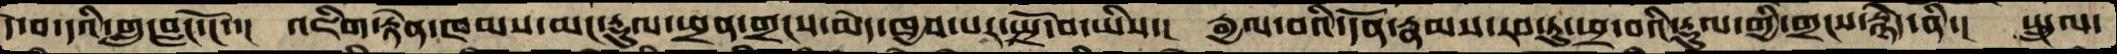དེ་བ་དའི་གླུ་བླང་ངོ་།  འཇིག་རྟེན་ཁམས་མང་རྡུལ་ཕྲན་གྲངས་མེད་ཁྱབ་པར་སྤྲོ་བ་ཡིས་།  རྒྱལ་བའི་དོན་རྣམས་རབ་ཏུ་ཕྲ་བའི་རྡུལ་གྱི་གྲངས་རྙེད་ནི་།  སྤྲུལ་
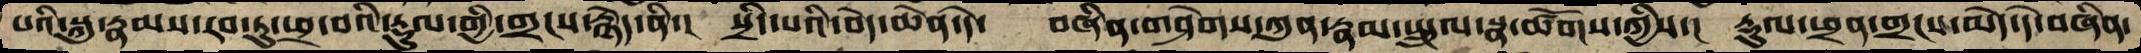པའི་སྐུ་རྣམས་རབ་ཏུ་ཕྲ་བའི་རྡུལ་གྱི་གྲངས་རྙེད་ནི་།  སྲིད་པའི་བདེ་ཆེན་དེ་   བཞིན་གཤེགས་ཀུན་རྣམ་སྤྲུལ་སྣ་ཚོགས་ཀྱིས་།  རྡུལ་ཕྲན་གྲངས་མེད་དེ་བཞིན་
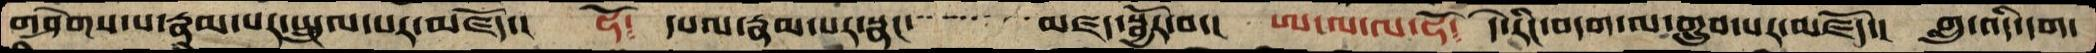གཤེགས་པ་རྣམ་པར་སྤྲུལ་པར་མཛོད་།  ཧོ་  དཔལ་རྣམ་པར་སྣང་  མཛད་སྦྱོར་བ་།  ཨ་ལ་ལ་ཧོ་།  དེ་རིང་བདག་ལ་གྲུབ་པར་མཛོད་།  གླུ་འདི་དག་
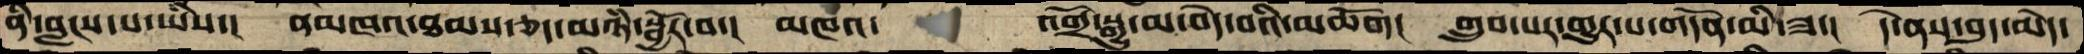ནི་བླངས་པ་ཡིས་།  ནམཁའ་ཐམས་ཅད་མཉཾ་སྦྱོར་བ་།   མཁའ་  འགྲོ་སྒྱུ་མ་བདེ་བའི་མཆོག།  གྲུབ་པར་གྱུར་པ་གདོན་མི་ཟ་།  དེ་ནས་བུད་མེད་
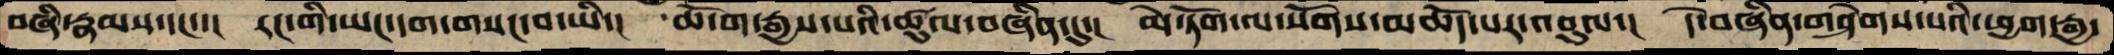བཞི་རྣམས་དང་།  རང་གི་ཡང་དག་གསང་བ་ཡི་།  ཆོ་ག་རྒྱས་པའི་ཚུལ་བཞིན་དུ་།  མེ་ཏོག་ལ་སོགས་མཆོད་པར་འབུལ་།  དེ་བཞིན་གཤེགས་པའི་ཕྱག་རྒྱ་
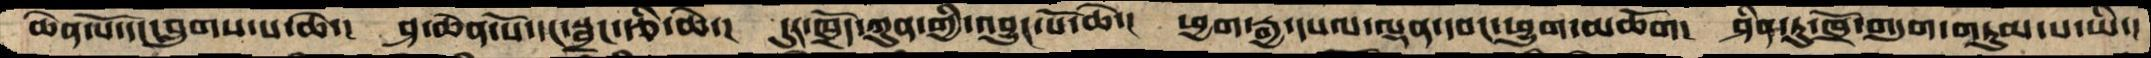ཆེན་པོ་དང་བླུགས་པ་ཆེ་།  ཤ་ཆེན་པོ་དང་སྦྲང་རྩི་ཆེ་།  དུར་ཁྲོད་ཀུན་གྱི་འབྱུང་པོ་ཆེ་།  ཕྱག་རྒྱ་དཔལ་ལྡན་དབང་ཕྱུག་མཆོག།  ཤིན་ཏུ་ཁྲོ་གདུག་གཏུམ་པ་ཡིས་
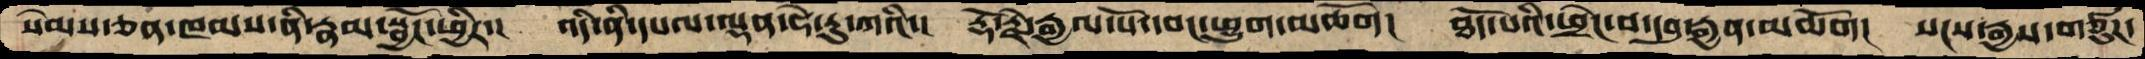སེམས་ཅན་ཁམས་ནི་རྣམ་སྦྱོང་ཕྱིར་།  འདི་ནི་དཔལ་ལྡན་ཧེ་རུ་ཀའི་།  རྡོ་རྗེ་རྒྱལ་པོ་དབང་ཕྱུག་མཆོག།  ཐོད་པའི་ཕྲེང་བ་དབུ་རྒྱན་མཆོག།  སངས་རྒྱས་གཙུཌ
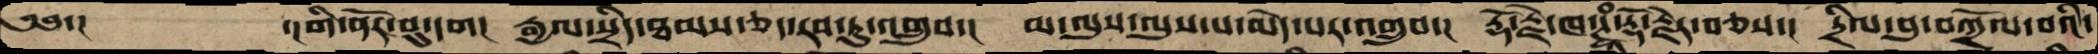༄༅་།        ་།གི་ནོར་བུ་དག།  རྒྱལ་སྲིད་ཐམས་ཅད་རབ་ཏུ་འགྲུབ་།  མ་ལུས་ལུས་པ་མེད་པར་འགྲུབ་།  རྡོ་རྗེ་ཁ་ཊྭཱཾ་རྡོ་རྗེར་བཅས་།  དྲིལ་བུ་བཀྲོལ་བའི་
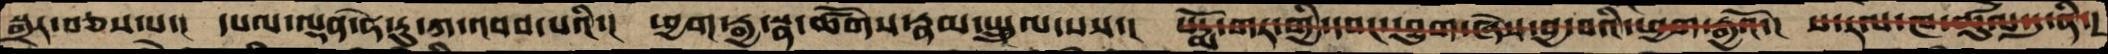སྒྲར་བཅས་པ་།  དཔལ་ལྡན་ཧེ་རུ་ཀ་འབབ་པའི་།  ཕྱག་རྒྱ་སྣ་ཚོགས་རྣམ་སྤྲུལ་པས་།  པདྨོ་གར་གྱི་དབང་ཕྱུག་ཞེས་བྱ་བའི་ཕྱག་རྒྱའོ་།  ས་རལ་ཁ་ཚུལ་དུ་ནི་།
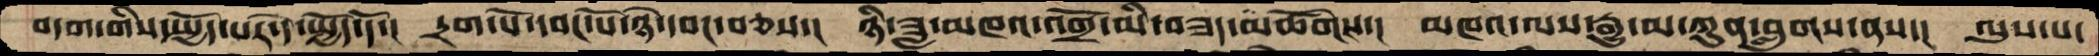བདག་གིས་སྤྱོད་པར་དེ་སྤྱོད་དོ་།  དྲག་པོ་དབང་པོ་ཉེ་དབང་བཅས་།  ཉི་ཟླ་མཁའ་འགྲོ་མི་བཟད་མཆོགས་།  མཁའ་ལས་རྒྱུ་མ་ཀུན་བླུགས་ནས་།  ལུས་པ་
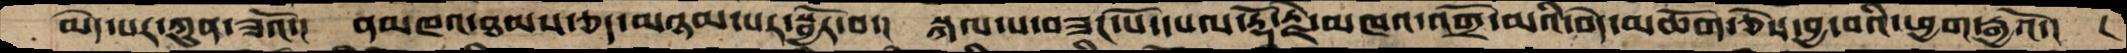མེད་པར་ཀུན་ཟའོ་།  ནམཁའ་ཐམས་ཅད་མཉམ་པར་སྦྱོར་བ་།  སྐལ་པ་བཟང་པོ་་དཔལ་རྡོ་རྗེ་མཁའ་འགྲོ་མའི་བདེ་མཆོག་ཅེས་བྱ་བའི་ཕྱག་རྒྱའོ་།   །
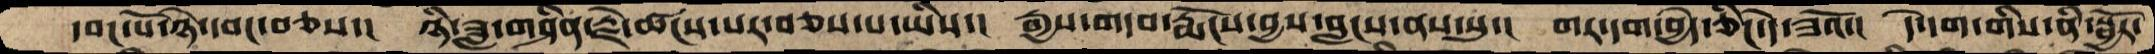དབང་པོ་ཉེ་དབང་བཅས་།  ཉི་ཟླ་གཤིན་རྗེ་ཚངས་པར་བཅས་པ་ཡིས་།  རྒྱས་གདབ་རྨོངས་བྱས་བླངས་ནས་སུ་།  གར་དག་བྱེད་ཅིང་དེ་ཟའོ་།  དེ་དག་གིས་ནི་སྦྱོར་
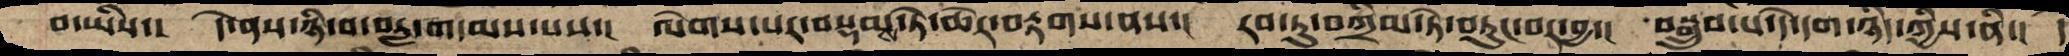བ་ཡིས་།  དེ་ནས་ཉི་བ་བརླ་གདམས་པས་།  ལེགས་པར་བསྡམས་ཏེ་ཆེར་བརྟགས་ནས་།  རབ་ཏུ་བཀྲིམ་ཏེ་བཏུང་བར་བྱ་།  བསྒྲུབ་པ་དེ་དག་ཉིད་ཀྱིས་ནི་།  །
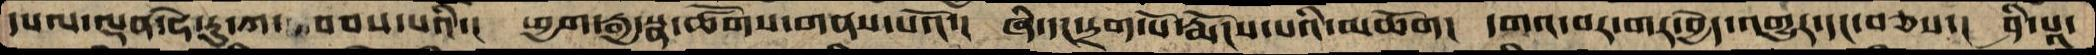དཔལ་ལྡན་ཧེ་རུ་ཀ་ བབས་པའི་།  ཕྱག་རྒྱ་སྣ་ཚོགས་གནས་པའོ་།  ཞི་དང་དྲག་པོ་རྨོངས་པའི་མཆོག།  དགའ་བར་གར་བྱེད་འགྱུར་དང་བཅས་།  ཤི་པཱ་
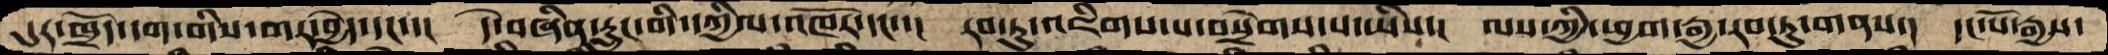དུར་ཁྲོད་དག་གིས་གར་བྱེད་དང་་།  དེ་བཞིན་རླུང་གི་དཀྱིལ་འཁོར་དང་་།  རབ་ཏུ་འཇིགས་པ་བསྲེགས་པ་ཡིས་།  ལས་ཀྱི་ཕྱག་རྒྱ་རབ་ཏུ་གནས་།  དང་པོ་རྒྱས་
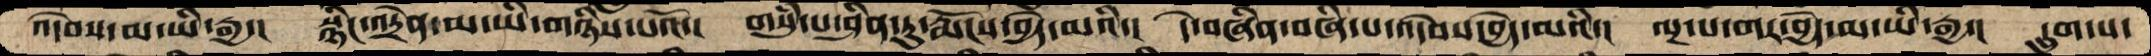འདེབས་མ་ཡི་རྒྱ་།  སྙིང་འདྲེན་མ་ཡི་གཉིས་པའོ་།  གསུཾ་པ་ཤིན་ཏུ་རྨོངས་བྱེད་མའི་།  དེ་བཞིན་བཞི་པ་འདེབས་བྱེད་མའི་།  ལྔ་པ་གར་བྱེད་མ་ཡི་རྒྱ་།  དྲུག་པ་
